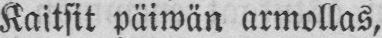Kaitsit päiwän armollas,
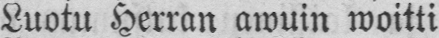Luotu Herran awuin woitti
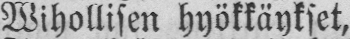Wihollisen hyökkäykset,
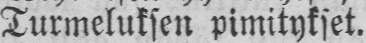Turmeluksen nimitykset.
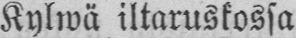Kylwä iltaruskossa
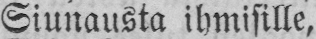Siunausta ihmisille,
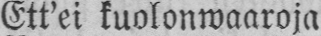Ett'ei kuolonwaaroja
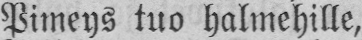Pimeys tuo halmehille,
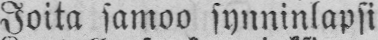Joita samoa synninlapsi
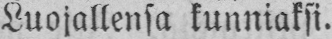Luojallensa kunniaksi.
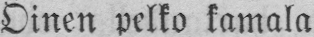Öinen pelko kamala
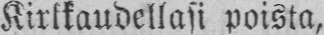Kirkkaudellasi poista,
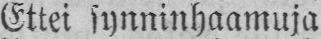Ettei synninhaamuja
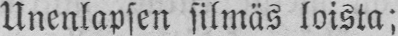Unenlapsen silmäs loista:
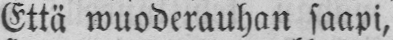Että wuoderauhan saapi,
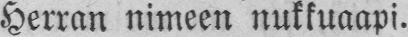Herran nimeen nukkuaapi.
